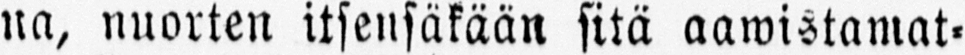na, nuorten itsensäkään sitä aawistamat-
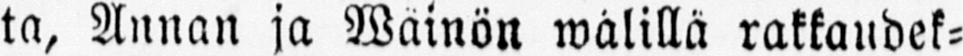ta, Annan ja Wainön wälillä rakkaudek-
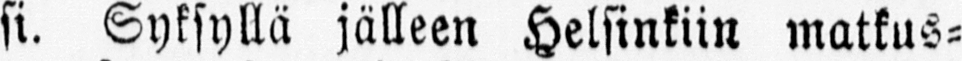si. Syksyllä jälleen Helsinkiin matkus-
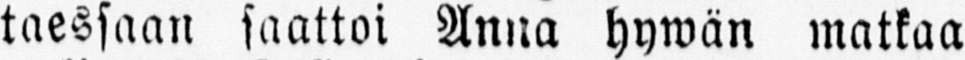taessaan saattoi Anna hywän matkaa
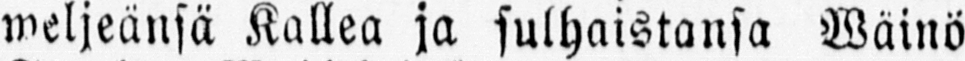weljeänsä Kallea ja sulhaistansa Wäinö
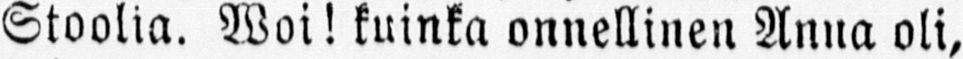Stoolia. Woi! kuinka onnellinen Anna oli,
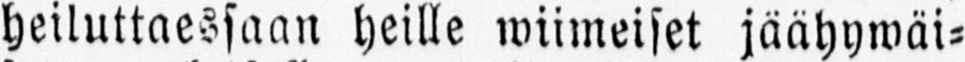heiluttaessaan heille wiimeiset jäähywäi-
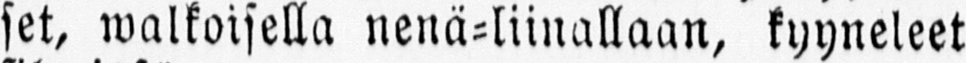set, walkoisella nenä-liinallaan, kyyneleet
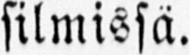silmissä.
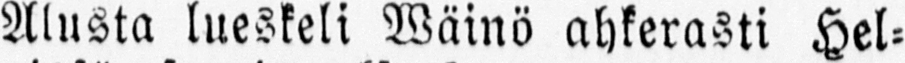Alusta lueskeli Wäinö ahkerasti Hel-
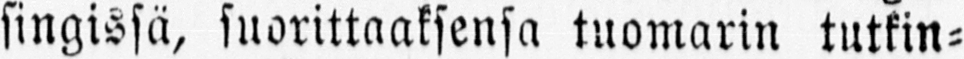singissä, suorittaaksensa tuomarin tutkin-
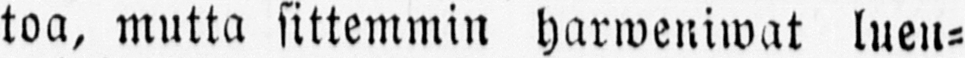toa, mutta sittemmin harweniwat luen-
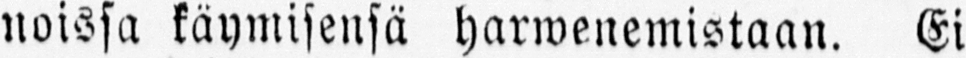noissa käymisensä harwenemistaan. Ei
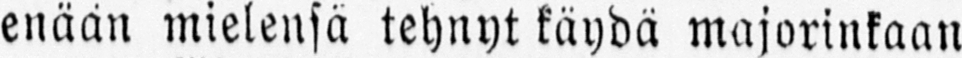enään mielensä tehnyt käydä majorinkaan
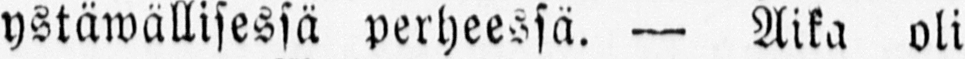ystäwällisessä perheessä. — Aika oli
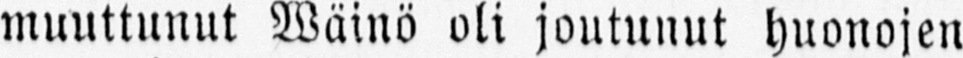muuttunut Wäinö oli joutunut huonojen
